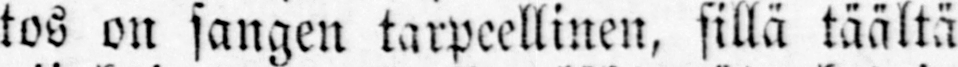tos on sangen tarpeellinen, sillä täältä
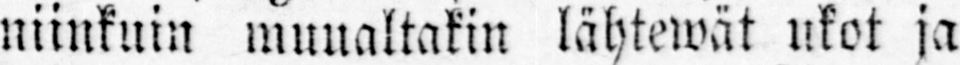niinkuin muualtakin lähtewät ukot ja
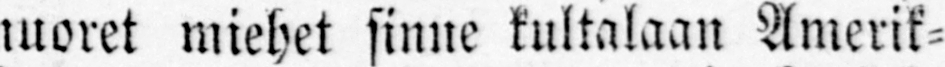nuoret miehet sinne kultalaan Amerik-
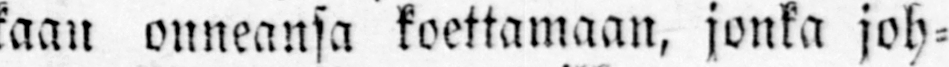kaan onneansa koettamaan, jonka joh-
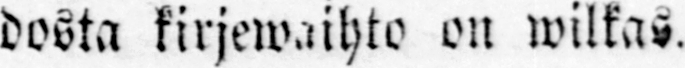dosta kirjewaihto on wilkas.
